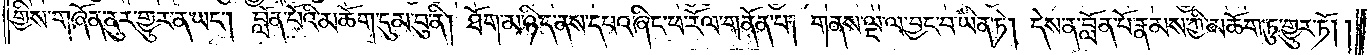གྱིས་གཞོན་ནུར་གྱུར་ན་ཡང༌། བློན་པོའི་མཆོག་དུམ་བུ་ནི། ཐོག་མ་ཉིད་ནས་དཔའ་ཞིང་ཕ་རོལ་གནོན་པ། གནས་ལྔ་ལ་བྱང་བ་ཡིན་ཏེ། དེས་ན་བློན་པོ་རྣམས་ཀྱི་མཆོག་ཏུ་གྱུར་ཏོ། །
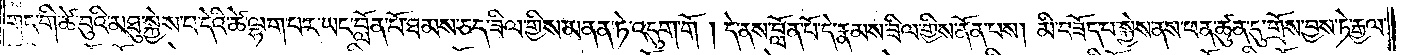གང་གི་ཚེ་བུའི་མཐུ་སྐྱེས་པ་དེའི་ཚེ་ལྷག་པར་ཡང་བློན་པོ་ཐམས་ཅད་ཟིལ་གྱིས་མནན་ཏེ་འདུག་གོ །དེ་ནས་བློན་པོ་དེ་རྣམས་ཟིལ་གྱིས་ནོན་པས། མི་བཟོད་པ་སྐྱེས་ནས་ཕན་ཚུན་དུ་གྲོས་བྱས་ཏེ་རྒྱལ་
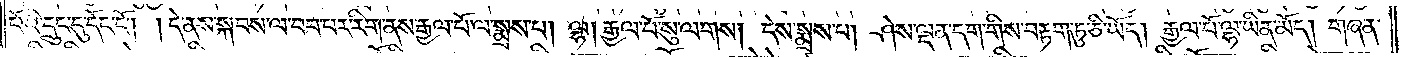པོའི་དྲུང་དུ་དོང་ངོ༌། །དེ་ནས་སྐབས་ལ་བབ་པར་རིག་ནས་རྒྱལ་པོ་ལ་སྨྲས་པ། ལྷ། རྒྱལ་པོ་སུ་ལགས། དེས་སྨྲས་པ། ཤེས་ལྡན་དག་གིས་བརྟག་ཏུ་ཅི་ཡོད། རྒྱལ་པོ་ལྷ་ཡིན་མོད། གཞན་
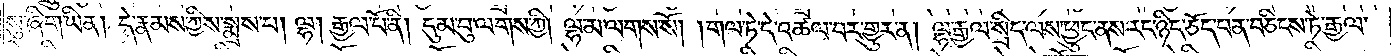སུ་ཞིག་ཡིན། དེ་རྣམས་ཀྱིས་སྨྲས་པ། ལྷ། རྒྱལ་པོ་ནི། དུམ་བུ་ལགས་ཀྱི། ལྷ་མ་ལགས་སོ། །གལ་ཏེ་དེ་འཚལ་བར་གྱུར་ན། ལྷ་རྒྱལ་སྲིད་ལས་ཕྱུང་ནས་རང་ཉིད་ཅོད་པན་བཅིངས་ཏེ་རྒྱལ་
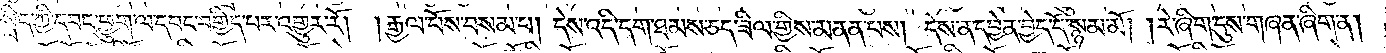སྲིད་ཀྱི་དབང་ཕྱུག་ལ་དབང་བགྱིད་པར་འགྱུར་རོ། །རྒྱལ་པོས་བསམ་པ། དེས་འདི་དག་ཐམས་ཅད་ཟིལ་གྱིས་མནན་པས། དེས་ན་དབྱེན་བྱེད་དོ་སྙམ་མོ། །རེ་ཞིག་དུས་གཞན་ཞིག་ན།
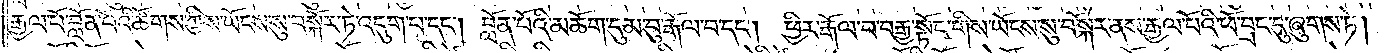རྒྱལ་པོ་བློན་པོའི་ཚོགས་ཀྱིས་ཡོངས་སུ་བསྐོར་ཏེ་འདུག་པ་དང༌། བློན་པོའི་མཆོག་དུམ་བུ་རྒོལ་བ་དང༌། ཕྱིར་རྒོལ་བ་བརྒྱ་སྟོང་གིས་ཡོངས་སུ་བསྐོར་ནས་རྒྱ་བོའི་ཕོ་བྲང་དུ་ཞུགས་ཏེ།
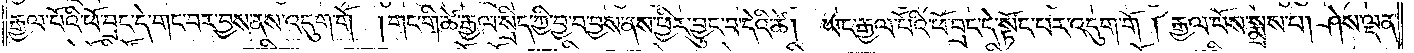རྒྱལ་པོའི་ཕོ་བྲང་དེ་གང་བར་བྱས་ནས་འདུག་གོ །གང་གི་ཚེ་རྒྱལ་སྲིད་ཀྱི་བྱ་བ་བྱས་ནས་ཕྱིར་བྱུང་བ་དེའི་ཚེ། ཡང་རྒྱལ་པོའི་ཕོ་བྲང་དེ་སྟོང་པར་འདུག་གོ། རྒྱལ་པོས་སྨྲས་པ། ཤེས་ལྡན་
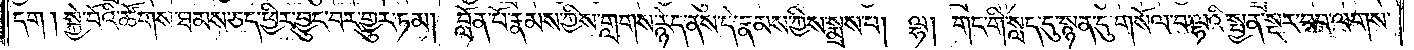དག །སྐྱེ་བོའི་ཚོགས་ཐམས་ཅད་ཕྱིར་བྱུང་བར་གྱུར་ཏམ། བློན་པོ་རྣམས་ཀྱིས་གླགས་སྙེད་ནས་དེ་རྣམས་ཀྱིས་སྨྲས་པ། ལྷ། གང་གི་སླད་དུ་སྙན་དུ་གསོལ་བ་ལྷའི་སྤྱན་སྔར་བབ་ལགས་
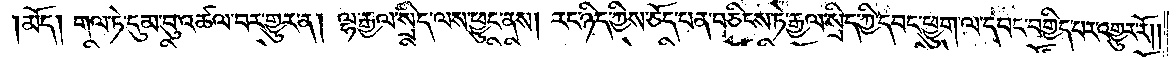།མོད། གལ་ཏེ་དུམ་བུ་འཚལ་བར་གྱུར་ན། ལྷ་རྒྱལ་སྲིད་ལས་ཕྱུང་ནས། རང་ཉིད་ཀྱིས་ཅོད་པན་བཅིངས་ཏེ་རྒྱལ་སྲིད་ཀྱི་དབང་ཕྱུག་ལ་དབང་བགྱིད་པར་འགྱུར་རོ།
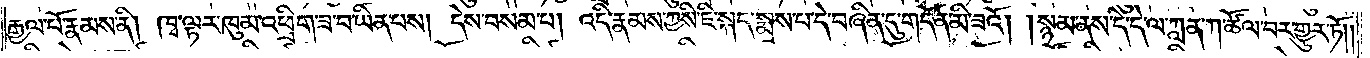རྒྱལ་པོ་རྣམས་ནི། ཁྭ་ལྟར་ཁུམ་འཕྲིག་ཟ་བ་ཡིན་པས། དེས་བསམ་པ། འདི་རྣམས་ཀྱིས་ཇི་སྐད་སྨྲས་པ་དེ་བཞིན་དུ་གདོན་མི་ཟའོ། །སྙམ་ནས་དེ་དེ་ལ་ཀླན་ཀ་ཚོལ་བར་གྱུར་ཏོ། །
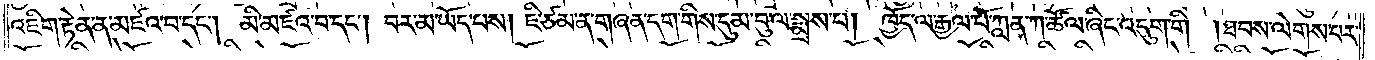འཇིག་རྟེན་ན་མཛའ་བ་དང༌། མི་མཛའ་བ་དང༌། བར་མ་ཡོད་པས། ཇི་ཙམ་ན་གཞན་དག་གིས་དུམ་བུ་ལ་སྨྲས་པ། ཁྱོད་ལ་རྒྱལ་པོ་ཀླན་ཀ་ཚོལ་ཞིང་འདུག་གི །ཐབས་ལེགས་པར་
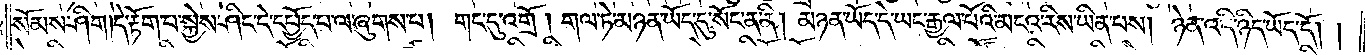སོམས་ཤིག །དེ་རྟོག་པ་སྐྱེས་ཤིང་དེ་དཔྱོད་པ་ལ་ཞུགས་པ། གང་དུ་འགྲོ། གལ་ཏེ་མཉན་ཡོད་དུ་སོང་ན་ནི། མཉན་ཡོད་དེ་ཡང་རྒྱལ་པོའི་མངའ་རིས་ཡིན་པས། ཉེན་འདི་ཉིད་ཡོད་དོ། །
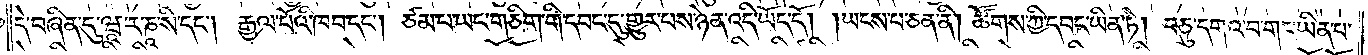དེ་བཞིན་དུ་ཝཱ་ར་ཎཱ་སི་དང༌། རྒྱལ་པོའི་ཁབ་དང༌། ཙམ་པ་ཡང་གཅིག་གི་དབང་དུ་གྱུར་པས་ཉེན་འདི་ཡོད་དོ། །ཡངས་པ་ཅན་ནི། ཚོགས་ཀྱི་དབང་ཡིན་ཏེ། བཅུ་དགའ་བ་གང་ཡིན་པ་
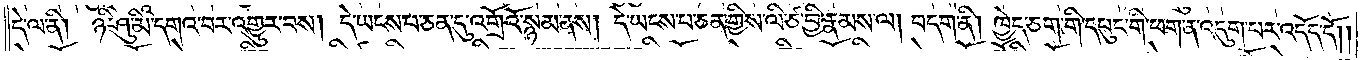དེ་ལ་ནི། ཉི་ཤུ་མི་དགའ་བར་འགྱུར་བས། དེ་ཡངས་པ་ཅན་དུ་འགྲོའོ་སྙམ་ནས། དེ་ཡངས་པ་ཅན་གྱིས་ལི་ཙ་བྱི་རྣམས་ལ། བདག་ནི། ཁྱེད་ཅག་གི་དཔུང་གི་ཕག་ན་འདུག་པར་འདོད་དོ། །
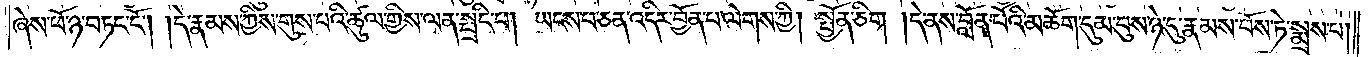ཞེས་ཕོ་ཉ་བཏང་ངོ༌། །དེ་རྣམས་ཀྱིས་གུས་པའི་ཚུལ་གྱིས་ལན་སྤྲིང་པ། ཡངས་པ་ཅན་འདིར་བྱོན་པ་ལེགས་ཀྱི། སྤྱོན་ཅིག །དེ་ནས་བློན་པོའི་མཆོག་དུམ་བུས་ཉེ་དུ་རྣམས་བོས་ཏེ་སྨྲས་པ།
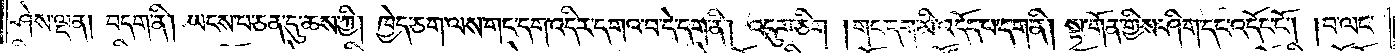ཤེས་ལྡན། བདག་ནི། ཡངས་པ་ཅན་དུ་ཆས་ཀྱི། ཁྱེད་ཅག་ལས་གང་དག་འདིར་དགའ་བ་དེ་དག་ནི། འདུག་ཅིག །གང་དག་མི་འདོད་པ་དག་ནི། སྟ་གོན་གྱིས་ཤིག་དང་འདོང་ངོ༌། །བ་ལང་
